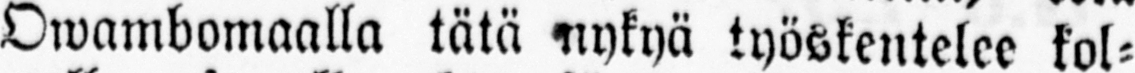Owambomaalla tätä nykyä työskentelee kol-
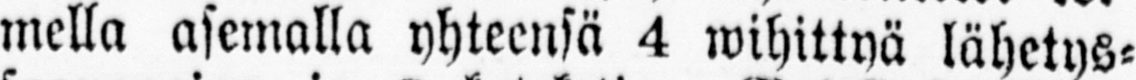mella asemalla yhteensä 4 wihittyä lähetys-
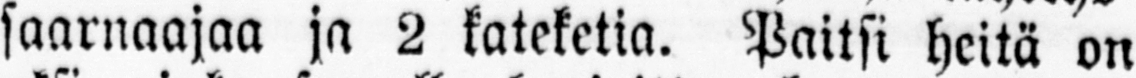saarnaajaa ja 2 kateketia. Paitsi heitä on
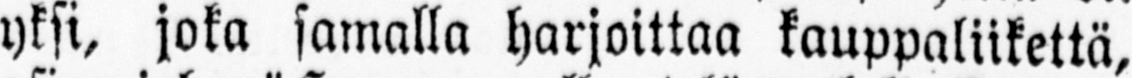yksi, joka samalla harjoittaa kauppaliikettä,
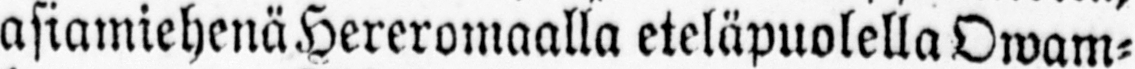asiamiehenä Hereromaalla eteläpuolella Owam-
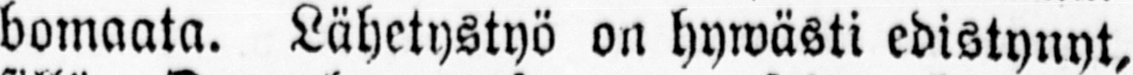bomaata. Lähetystyö on hywästi edistynyt,
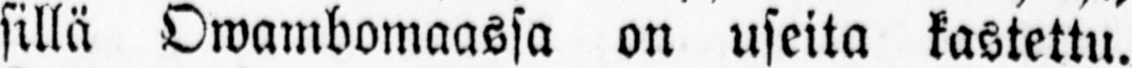sillä Owambomaassa on useita kastettu.
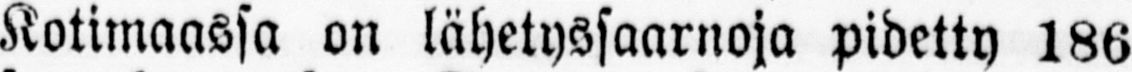Kotimaassa on lähetyssaarnoja pidetty 186
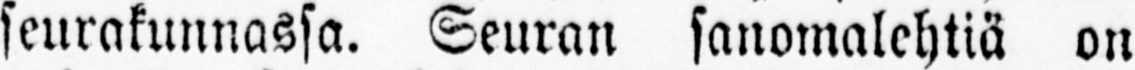seurakunnassa. Seuran sanomalehtiä on
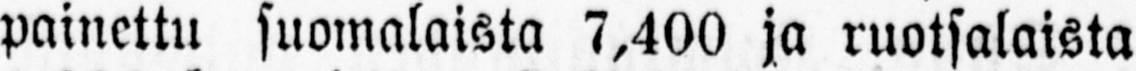painettu suomalaista 7,400 ja ruotsalaista
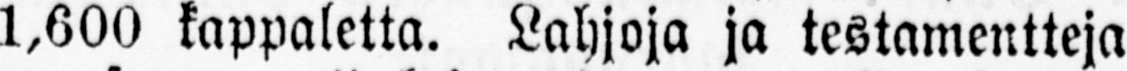1,600 kappaletta. Lahjoja ja testamentteja
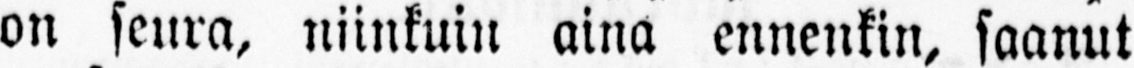on seura, niinkuin aina ennenkin, saanut
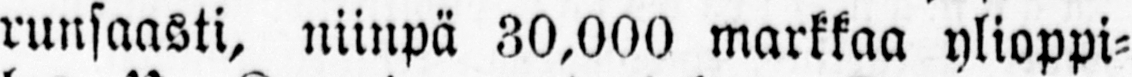runsaasti, niinpä 30,000 markkaa ylioppi-
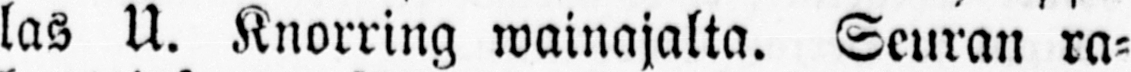las U. Knorring wainajalta. Seuran ra-
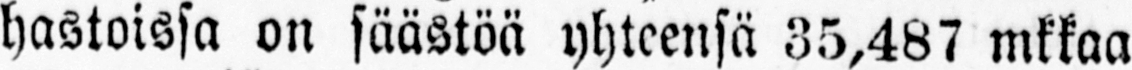hastoissa on säästöä yhteensä 35,487 mkkaa
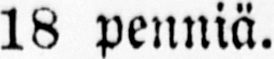18 penniä.
